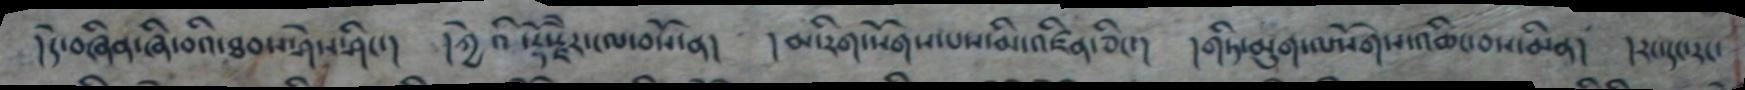།དེ་བཞིན་ཞི་བའི་ཐབས་ཤེས་ཤིང་། །ཀྱེའི་རྡོ་རྗཻར་ངལ་བསོ་ན། །མ་རིག་སོགས་པས་མི་འཛིན་ཅིང་། །གཏི་མུག་ལསོགས་འཆིང་བས་མིན། །རང་དང་རང་
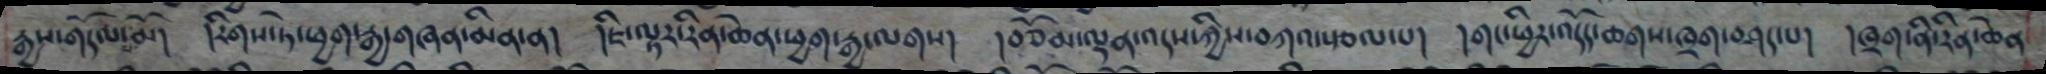རྒྱས་གདོལ་མོ། །རིགས་ཏེ་ཕྱག་རྒྱ་གཞན་མིན་ན། །ཇི་ལྟར་རིན་ཆེན་ཕྱག་རྒྱ་ལགས། །བཅོམ་ལྡན་འདས་ཀྱིས་བཀའ་སྩལ་པ། །གང་ཕྱིར་འདོད་ཆགས་ཁྲག་བཤད་པ། །ཁྲག་ནི་རིན་ཆེན
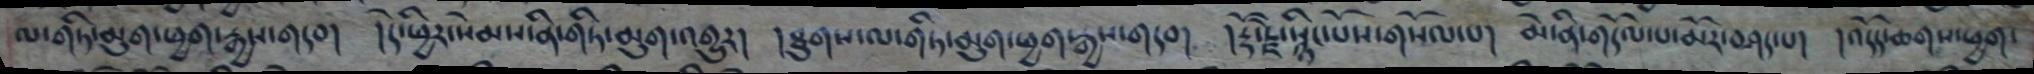ལ་གཏི་མུག་ཕྱག་རྒྱས་གདབ། །དེ་ཕྱིར་སེམས་ནི་གཏི་མུག་འགྱུར། །ཐུགས་ལ་གཏི་མུག་ཕྱག་རྒྱས་གདབ། །རྡོ་རྗེ་སྙིང་པོས་གསོལ་པ། མེ་ནི་གདོལ་པ་མོར་བཤད་པ། །འདོད་ཆགས་ཕྱག་
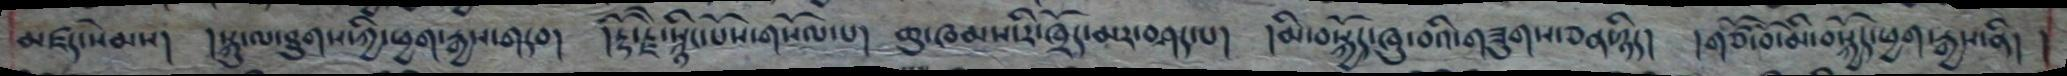མཛད་སེམས། །སྐུ་ལ་ཐུགས་ཀྱི་ཕྱག་རྒྱས་གདབ། །རྡོ་རྗཻ་སྙིང་པོས་གསོལ་པ། ཆུ་ཁམས་རི་ཁྲོད་མར་བཤད་པ། །མི་བསྐྱོད་ཞུ་བའི་གཟུགས་ཅན་ཉིད། །གཙོ་བོ་མི་བསྐྱོད་ཕྱག་རྒྱས་ནི། །
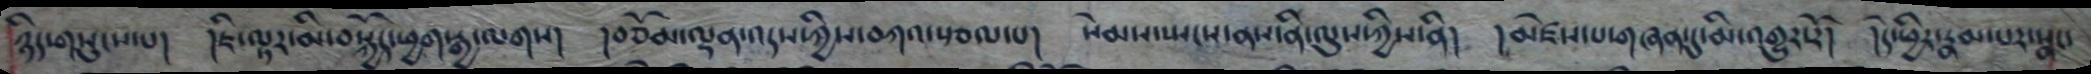ཉིད་གསུངས་པ། །ཇི་ལྟར་མི་བསྐྱོད་ཕྱག་རྒྱ་ལགས། །བཅོམ་ལྡན་འདས་ཀྱིས་བཀའ་སྩལ་པ། སེམས་སྤངས་ནས་ནི་ལུས་ཀྱིས་ནི། །མཛེས་པ་གཞན་དུ་མི་འགྱུར་རོ། །དེ་ཕྱིར་རྣམ་པར་སྣང་
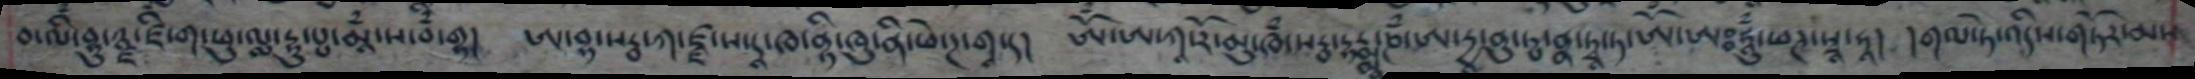བ་ལི་བྷུ་ཉྫ་ཛི་ག་ཕུ་ལླ་དྷུ་པྤ་མཱཾ་ས་བཾ་གྷ། ཨ་བྷ་སརྦ་ཀ་ཛྫ་ས་དཱ་ཁ་ནྟི་ཁུ་ནི་ཕེ་ཌ་གཱ་ད། ཨོཾ་ཨ་ཀཱ་རོ་མུ་ཁཾ་སརྦ་དྷརྨྨཱ་ཎཾ་ཨ་རྱ་ནུ་ཏྤ་ནྣ་རྭཱ་ཏ་ཨོཾ་ཨཿ ཧཱུཾ་ཕཊ་སྭཱ་ཧཱ། །གལ་ཏེ་འདིས་གཏོར་མས
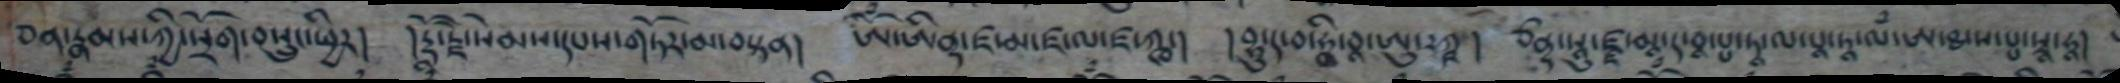ཅན་རྣམས་ཀྱི་སྲོག་བསྲུང་ཕྱིར།      །རྡོ་རྗེ་སེམས་དཔས་གཏོར་མ་བསྟན།   ཨོཾ་ཨིནྡ་ཛ་མ་ཛ་ལ་ཛ་ཀཁ་།   །བྷུ་ད་བ་ཧྭི་བྰ་ཨུ་རཀྵ།    ཙནྡ་རྰུ་ཛྫ་མྰུ་ད་བུ་པྤ་ཏྰ་ལ་པྰ་ཏྰ་ལཾ་ཨ་ཐ་ས་པྤ་སྭྰ་ཧྰ།
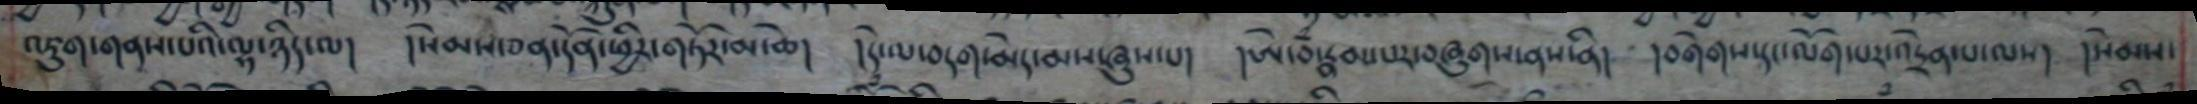འཇུག་གནས་པའི་ལྷ་ཉིད་ལ། །སེམས་ཅན་དོན་ཕྱིར་གཏོར་མ་ཆེ། །དེ་ལ་བདག་མེད་མས་ཞུས་པ། །ཨེ་བཾ་རྣམས་པར་བཞུགས་ནས་ནི། །བགེགས་དང་ལོག་པར་འདྲེན་པ་ལས། །སེམས་
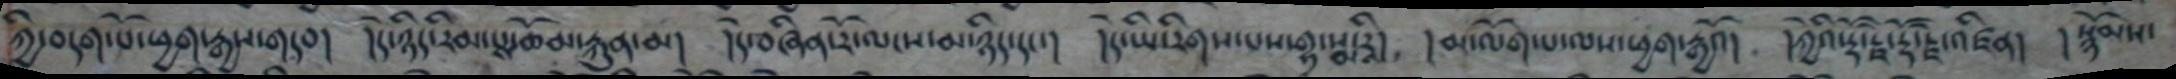ཀྱི་བདག་པོ་ཕྱག་རྒྱས་གདབ། །དེ་ཉིད་རིམ་པྶ་ཆོམ་རྐུན་མ། །དེ་བཞིན་རོ་ལངས་མ་ཉིད་དང་། །དེ་ཡི་རིགས་པས་གྷ་སྨ་རཱི། །མ་ལོག་པ་ལས་ཕྱག་རྒྱའོ། །ཀྱེའི་རྡོ་རྗེ་རྡོ་རྗེའཛིན། །སྙོམས་
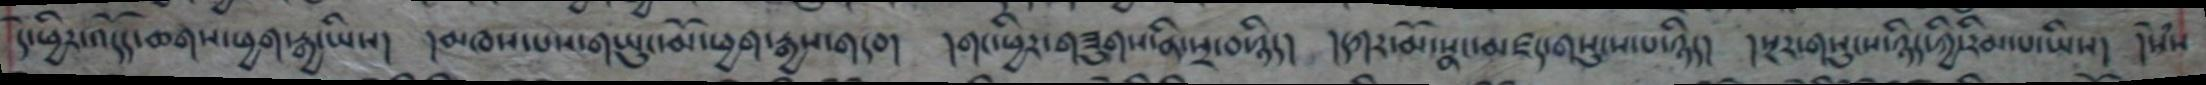དེ་ཕྱིར་འདོད་ཆགས་ཕྱག་རྒྱ་ཡིས། །མཁས་པས་གཡུང་མོ་ཕྱག་རྒྱས་གདབ། །གང་ཕྱིར་གཟུགས་ནི་སྲ་བ་ཉིད། །དཀར་མོ་སྣང་མཛད་གསུངས་པ་ཉིད། །སྔར་གསུངས་ཉིད་ཀྱི་རིམ་པ་ཡིས། །སེཾས
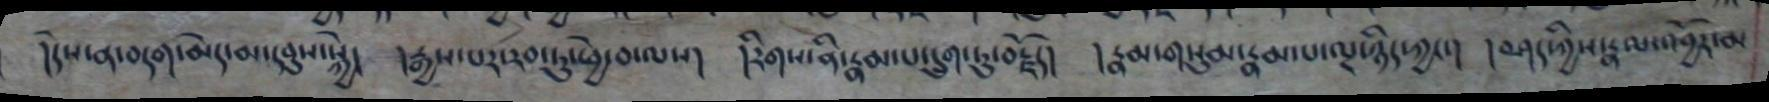།དེས་ན་བདག་མེད་མ་དབུས་སྐྱེ། །རྒྱས་པར་རབ་ཏུ་ཕྱེ་བ་ལས། །རིགས་ནི་རྣམ་པ་དྲུག་ཏུ་བརྗོད། །རྣམ་གསུམ་རྣམ་པ་ལྔ་ཉིད་ཀྱང་། །བཤད་ཀྱིས་རྣལ་འབྱོར་མ
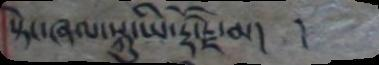སྟེང་ཞལ་སྐུ་ཡི་རྡོ་རྗེ་མ། །
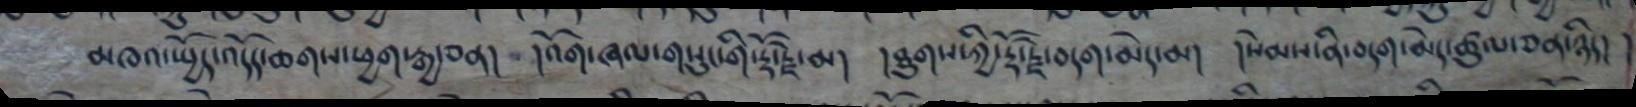མཁའ་སྤྱོད་འདོད་ཆགས་ཕྱག་རྒྱ་ཅན། །འོག་ཞལ་གསུང་གི་རྡོ་རྗེ་མ། །ཐུགས་ཀྱི་རྡོ་རྗེ་བདག་མེད་མ། །སེམས་ནི་བསག་མེད་ཚུལ་ཅན་ཉིད། །
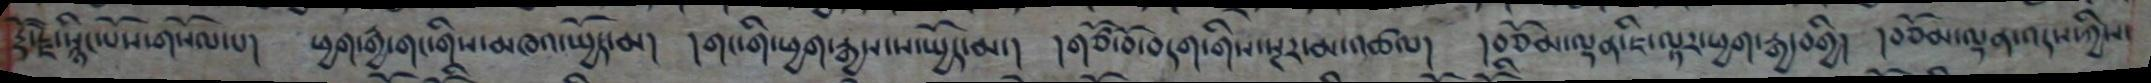རྡོ་རྗེ་སྙིང་པོས་གསོལ་པ། ཕྱག་རྒྱ་གང་གིས་མཁའ་སྤྱོད་མ། །གང་གིས་ཕྱག་རྒྱས་ས་སྤྱོད་མ་། །གཙོ་བོ་བདག་གིས་སྔར་མ་འཚལ། །བཅོམ་ལྡན་ཇི་ལྟར་ཕྱག་རྒྱ་བགྱི། །བཅོམ་ལྡན་འདས་ཀྱིས་
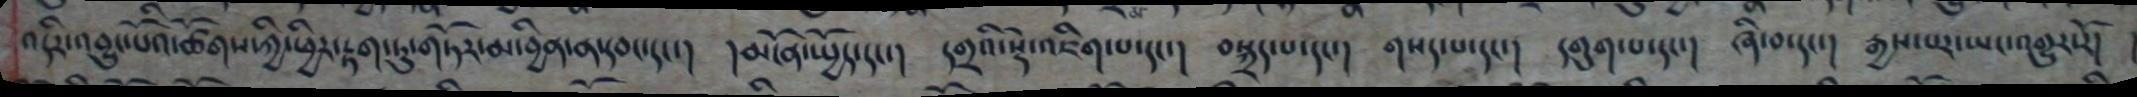འདིར་འབྱུང་པོའི་ཚོགས་ཀྱི་ཕྱིར་རྟག་ཏུ་གཏོར་མ་བྱིན་ན་དབང་དང་། །མངོན་སྤྱོད་དང་། དགྲའི་སྡེ་འཇིག་པ་དང་། བསྐྲད་པ་དང་། གསད་པ་དང་། དགུག་པ་དང་། ཞི་བ་དང་། རྒྱས་པར་ཡང་འགྱུར་རོ། །
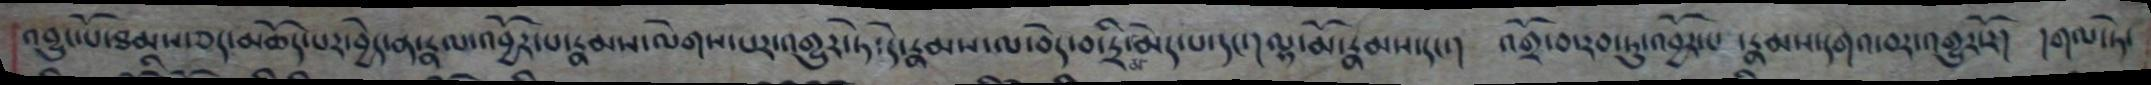འབྱུང་པོ་ཐམས་ཅད་མཆོད་པར་བྱེད་ན་རྣལ་འབྱོར་པ་རྣམས་ལེགས་པར་འགྱུར་ཏེ་དེ་རྣམས་ལ་བདེ་བ་དྲི་མ་མེད་པ་དང་།   ལྷ་མོ་རྣམས་དང་།   འགྲོ་བ་རབ་ཏུ་འབྱོར་པ  །རྣམས་དགའ་བར་འགྱུར་རོ།   །གལ་ཏེ་
